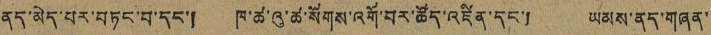ནད་མེད་པར་བཏང་བ་དང་། ཁ་ཚ་འུ་ཚ་སོགས་འགོ་བར་ཚོད་འཛིན་དང་། ཡམས་ནད་གཞན་
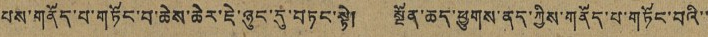པས་གནོད་པ་གཏོང་བ་ཆེས་ཆེར་ཇེ་ཉུང་དུ་བཏང་སྟེ། སྔོན་ཆད་ཕྱུགས་ནད་ཀྱིས་གནོད་པ་གཏོང་བའི་་
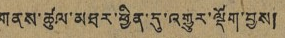གནས་ཚུལ་མཐར་ཕྱིན་དུ་འགྱུར་ལྡོག་བྱས།
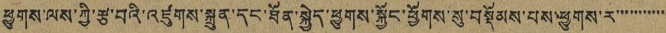ཕྱུགས་ལས་ཀྱི་རྩ་བའི་འཛུགས་སྐྲུན་དང་ཐོན་སྐྱེད་ཕྱུགས་སྐྱོང་ཕྱོགས་སུ་བསྡོམས་པས་ཕྱུགས་ར་་་་་་་་་་་
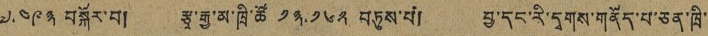༧.༤༩༣ བསྐོར་བ། རྩྭ་རྒྱ་མ་ཁྲི་ཚོ ༡༣.༡༦༢ བཏུས་པ། བྱ་དང་རི་དྭགས་གནོད་པ་ཅན་ཁྲི་
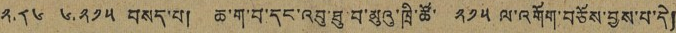༢.༨༦ ༦.༢༡༥ བསད་པ། ཆ་ག་བ་དང་འབུ་ཐུ་བ་མུའུ་ཁྲི་ཚོ་ ༢༡༥ ལོ་འགོག་བཅོས་བྱས་པ་དེ།
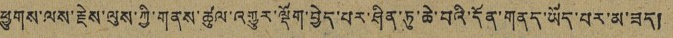ཕྱུགས་ལས་རྗེས་ལུས་ཀྱི་གནས་ཚུལ་འགྱུར་ལྡོག་བྱེད་པར་ཤིན་ཏུ་ཆེ་བའི་དོན་གནད་ཡོད་པར་མ་ཟད།
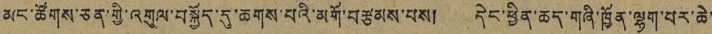མང་ཚོགས་ཅན་གྱི་འགུལ་བསྐྱོད་དུ་ཆགས་པའི་མགོ་བརྩམས་པས། དེང་ཕྱིན་ཆད་གཞི་ཁྱིན་ལྷག་པར་ཆེ་
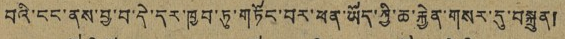བའི་ངང་ནས་བྱ་བ་དེ་དར་ཁྱབ་ཏུ་གཏོང་བར་ཕན་ཡོད་ཀྱི་ཆ་རྐྱེན་གསར་དུ་བསྐྲུན།
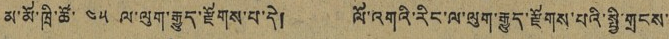མ་མོ་ཁྲི་ཚོ་ ༤༥ ལ་ལུག་རྒྱུད་རྫོགས་པ་དེ། ལོ་འགའ་རིང་ལ་ལུག་རྒྱུད་རྫོགས་པའི་སྤྱི་གྲངས་
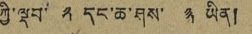ཀྱི་ལྡབ་ ༢ དང་ཆ་ཤས་ ༣ ཡིན།
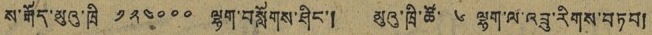ས་རྒོད་མུའུ་ཁྲི་ ༡༢༤༠༠༠ ལྷག་བསློགས་ཤིང་། མུའུ་ཁྲི་ཚོ་ ༦ ལྷག་ལ་འབྲུ་རིགས་བཏབ།
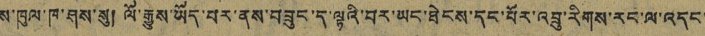ས་ཁུལ་ཁ་ཤས་སུ། ལོ་རྒྱུས་ཡོད་པར་ནས་བཟུང་ད་ལྟའི་བར་ཡང་ཐེངས་དང་པོར་འབྲུ་རིགས་རང་ལ་འདང་
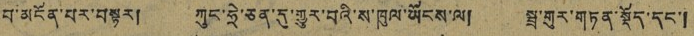བ་མངོན་པར་བསྟར། ཀུང་ཧྲེ་ཅན་དུ་གྱུར་བའི་ས་ཁུལ་ཡོངས་ལ། སྦྲ་གུར་གཏན་སྡོད་དང་།
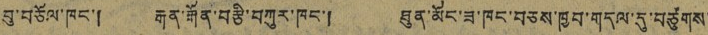བུ་བཅོལ་ཁང་། རྒན་རྒོན་བརྩི་བཀུར་ཁང་། ཐུན་མོང་ཟ་ཁང་བཅས་ཁྱབ་གདལ་དུ་བཙུགས་
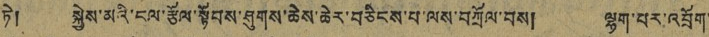ཏེ། སྐྱེས་མའི་ངལ་རྩོལ་སྟོབས་ཤུགས་ཆེས་ཆེར་བཅིངས་པ་ལས་བཀྲོལ་བས། ལྷག་པར་འབྲོག་
